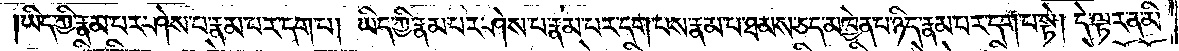ཡིད་ཀྱི་རྣམ་པར་ཤེས་པ་རྣམ་པར་དག་པ། ཡིད་ཀྱི་རྣམ་པར་ཤེས་པ་རྣམ་པར་དག་པས་རྣམ་པ་ཐམས་ཅད་མཁྱེན་པ་ཉིད་རྣམ་པར་དག་པ་སྟེ། དེ་ལྟར་ན་མི་
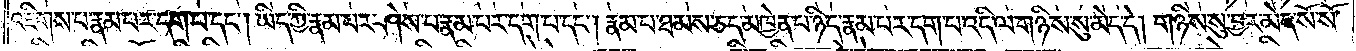འཇིགས་པ་རྣམ་པར་དག་པ་དང༌། ཡིད་ཀྱི་རྣམ་པར་ཤེས་པ་རྣམ་པར་དག་པ་དང༌། རྣམ་པ་ཐམས་ཅད་མཁྱེན་པ་ཉིད་རྣམ་པར་དག་པ་འདི་ལ་གཉིས་སུ་མེད་དེ། གཉིས་སུ་བྱར་མེད་སོ་སོ་
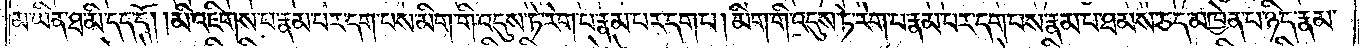མ་ཡིན་ཐ་མི་དད་དོ། །མི་འཇིགས་པ་རྣམ་པར་དག་པས་མིག་གི་འདུས་ཏེ་རེག་པ་རྣམ་པར་དག་པ། མིག་གི་འདུས་ཏེ་རེག་པ་རྣམ་པར་དག་པས་རྣམ་པ་ཐམས་ཅད་མཁྱེན་པ་ཉིད་རྣམ་
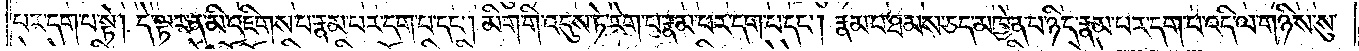པར་དག་པ་སྟེ། དེ་ལྟར་ན་མི་འཇིགས་པ་རྣམ་པར་དག་པ་དང༌། མིག་གི་འདུས་ཏེ་རེག་པ་རྣམ་པར་དག་པ་དང༌། རྣམ་པ་ཐམས་ཅད་མཁྱེན་པ་ཉིད་རྣམ་པར་དག་པ་འདི་ལ་གཉིས་སུ་
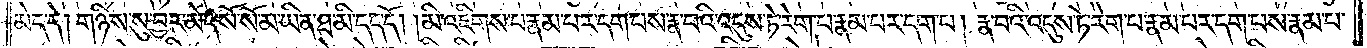མེད་དེ། གཉིས་སུ་བྱར་མེད་སོ་སོ་མ་ཡིན་ཐ་མི་དད་དོ། །མི་འཇིགས་པ་རྣམ་པར་དག་པས་རྣ་བའི་འདུས་ཏེ་རེག་པ་རྣམ་པར་དག་པ། རྣ་བའི་འདུས་ཏེ་རེག་པ་རྣམ་པར་དག་པས་རྣམ་པ་
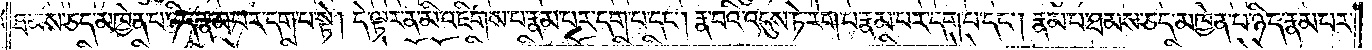ཐམས་ཅད་མཁྱེན་པ་ཉིད་རྣམ་པར་དག་པ་སྟེ། དེ་ལྟར་ན་མི་འཇིགས་པ་རྣམ་པར་དག་པ་དང༌། རྣ་བའི་འདུས་ཏེ་རེག་པ་རྣམ་པར་དག་པ་དང༌། རྣམ་པ་ཐམས་ཅད་མཁྱེན་པ་ཉིད་རྣམ་པར་
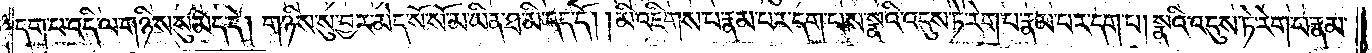དག་པ་འདི་ལ་གཉིས་སུ་མེད་དེ། གཉིས་སུ་བྱར་མེད་སོ་སོ་མ་ཡིན་ཐ་མི་དད་དོ། །མི་འཇིགས་པ་རྣམ་པར་དག་པས་སྣའི་འདུས་ཏེ་རེག་པ་རྣམ་པར་དག་པ། སྣའི་འདུས་ཏེ་རེག་པ་རྣམ་
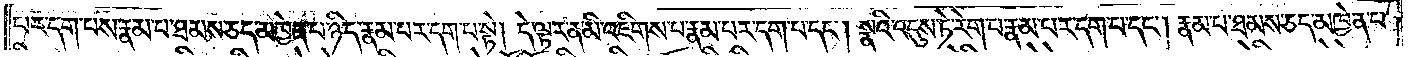པར་དག་པས་རྣམ་པ་ཐམས་ཅད་མཁྱེན་པ་ཉིད་རྣམ་པར་དག་པ་སྟེ། དེ་ལྟར་ན་མི་འཇིགས་པ་རྣམ་པར་དག་པ་དང༌། སྣའི་འདུས་ཏེ་རེག་པ་རྣམ་པར་དག་པ་དང༌། རྣམ་པ་ཐམས་ཅད་མཁྱེན་པ་
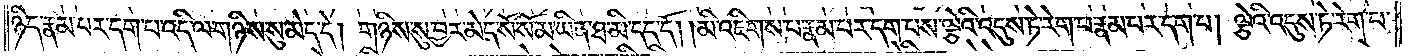ཉིད་རྣམ་པར་དག་པ་འདི་ལ་གཉིས་སུ་མེད་དེ། གཉིས་སུ་བྱར་མེད་སོ་སོ་མ་ཡིན་ཐ་མི་དད་དོ། །མི་འཇིགས་པ་རྣམ་པར་དག་པས་ལྕེའི་འདུས་ཏེ་རེག་པ་རྣམ་པར་དག་པ། ལྕེའི་འདུས་ཏེ་རེག་པ་
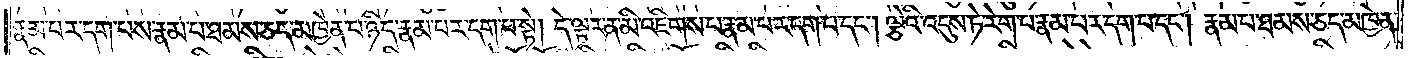རྣམ་པར་དག་པས་རྣམ་པ་ཐམས་ཅད་མཁྱེན་པ་ཉིད་རྣམ་པར་དག་པ་སྟེ། དེ་ལྟར་ན་མི་འཇིགས་པ་རྣམ་པར་དག་པ་དང༌། ལྕེའི་འདུས་ཏེ་རེག་པ་རྣམ་པར་དག་པ་དང༌། རྣམ་པ་ཐམས་ཅད་མཁྱེན་
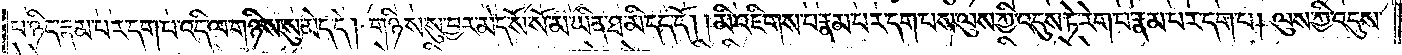པ་ཉིད་རྣམ་པར་དག་པ་འདི་ལ་གཉིས་སུ་མེད་དེ། གཉིས་སུ་བྱར་མེད་སོ་སོ་མ་ཡིན་ཐ་མི་དད་དོ། །མི་འཇིགས་པ་རྣམ་པར་དག་པས་ལུས་ཀྱི་འདུས་ཏེ་རེག་པ་རྣམ་པར་དག་པ། ལུས་ཀྱི་འདུས་
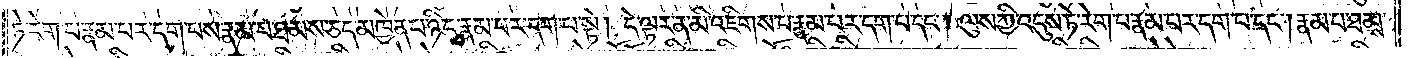ཏེ་རེག་པ་རྣམ་པར་དག་པས་རྣམ་པ་ཐམས་ཅད་མཁྱེན་པ་ཉིད་རྣམ་པར་དག་པ་སྟེ། དེ་ལྟར་ན་མི་འཇིགས་པ་རྣམ་པར་དག་པ་དང༌། ལུས་ཀྱི་འདུས་ཏེ་རེག་པ་རྣམ་པར་དག་པ་དང༌། རྣམ་པ་ཐམས་
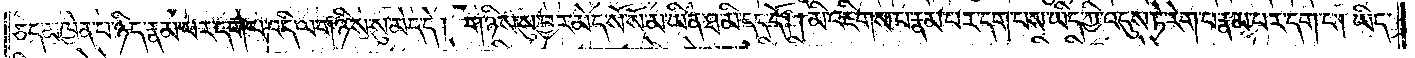ཅད་མཁྱེན་པ་ཉིད་རྣམ་པར་དག་པ་འདི་ལ་གཉིས་སུ་མེད་དེ། གཉིས་སུ་བྱར་མེད་སོ་སོ་མ་ཡིན་ཐ་མི་དད་དོ། །མི་འཇིགས་པ་རྣམ་པར་དག་པས་ཡིད་ཀྱི་འདུས་ཏེ་རེག་པ་རྣམ་པར་དག་པ། ཡིད་
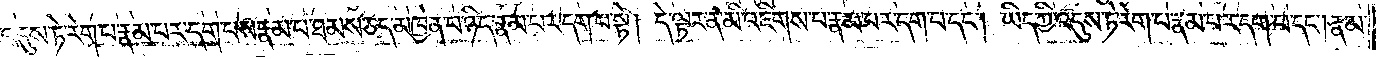ཀྱི་འདུས་ཏེ་རེག་པ་རྣམ་པར་དག་པས་རྣམ་པ་ཐམས་ཅད་མཁྱེན་པ་ཉིད་རྣམ་པར་དག་པ་སྟེ། དེ་ལྟར་ན་མི་འཇིགས་པ་རྣམ་པར་དག་པ་དང༌། ཡིད་ཀྱི་འདུས་ཏེ་རེག་པ་རྣམ་པར་དག་པ་དང༌། རྣམ་
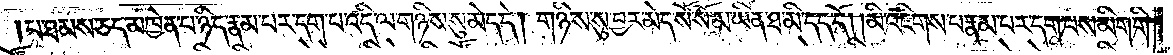པ་ཐམས་ཅད་མཁྱེན་པ་ཉིད་རྣམ་པར་དག་པ་འདི་ལ་གཉིས་སུ་མེད་དེ། གཉིས་སུ་བྱར་མེད་སོ་སོ་མ་ཡིན་ཐ་མི་དད་དོ། །མི་འཇིགས་པ་རྣམ་པར་དག་པས་མིག་གི་
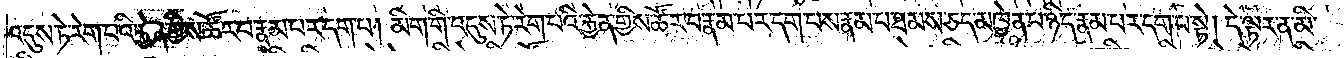འདུས་ཏེ་རེག་པའི་རྐྱེན་གྱིས་ཚོར་བ་རྣམ་པར་དག་པ། མིག་གི་འདུས་ཏེ་རེག་པའི་རྐྱེན་གྱིས་ཚོར་བ་རྣམ་པར་དག་པས་རྣམ་པ་ཐམས་ཅད་མཁྱེན་པ་ཉིད་རྣམ་པར་དག་པ་སྟེ། དེ་ལྟར་ན་མི་
